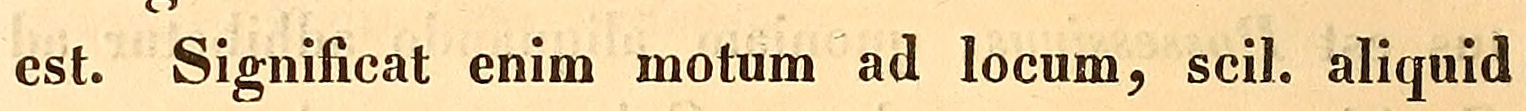est. Significat enim motum ad locum, scil. aliquid
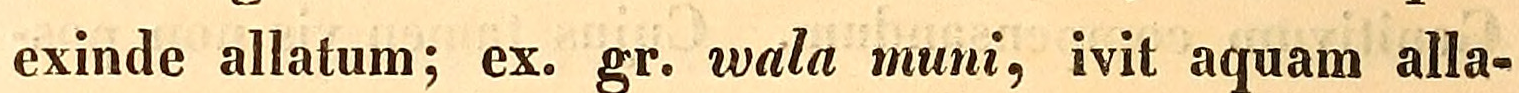exinde allatum; ex. gr. wala muni, ivit aquam alla-
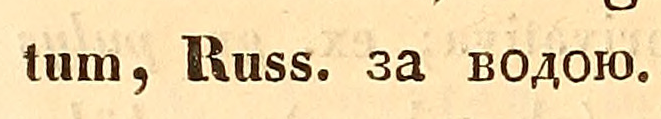tum, Russ. за водою.
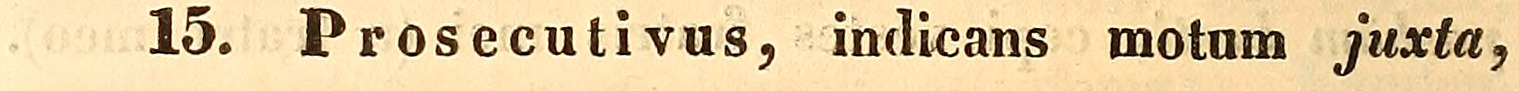15. Prosecutivus, indicans motum juxta,
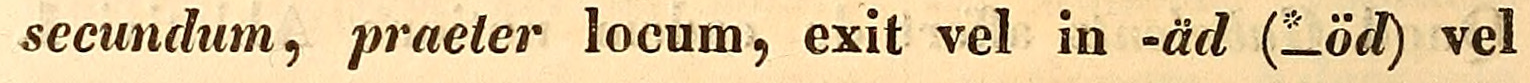secundum, praeter locum, exit vel in -äd (*_öd) vel
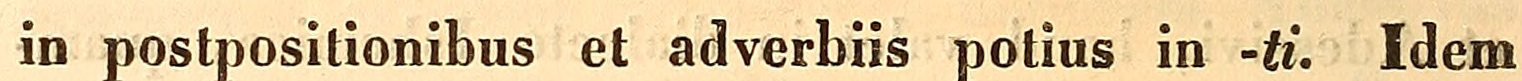in postpositionibus et adverbiis potius in -ti. Idem
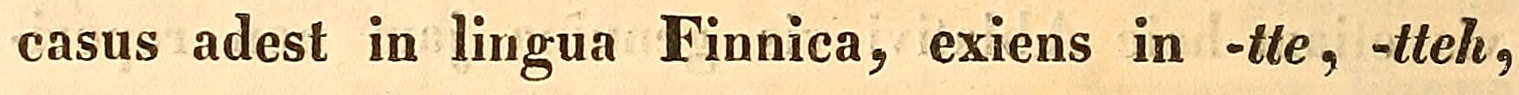casus adest in lingua Finnica, exiens in -tte, -tteh,
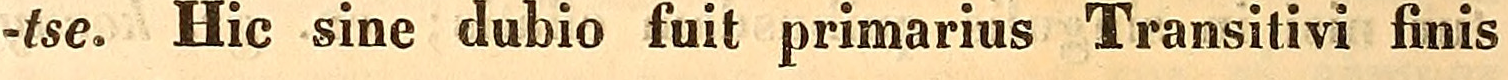-tse. Hic sine dubio fuit primarius Transitivi finis
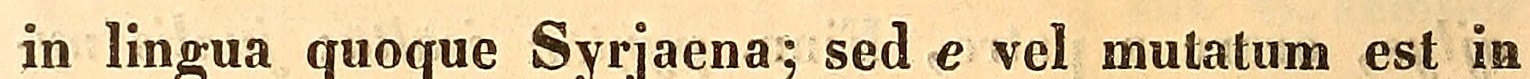in lingua quoque Syrjaena; sed e vel mutatum est in
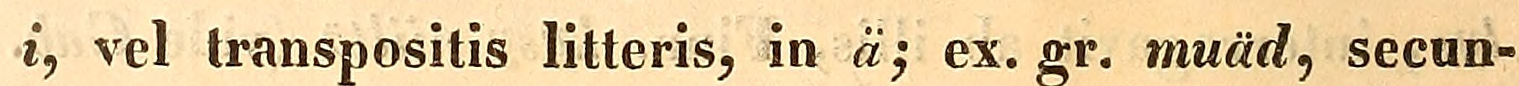i, vel transpositis litteris, in ä; ex. gr. muäd, secun-
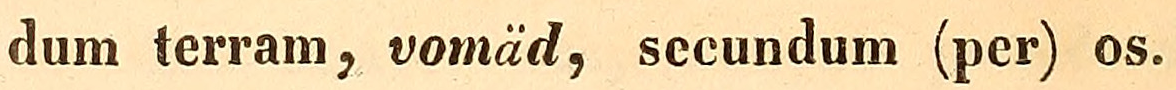dum terram, vomäd, secundum (per) os.
